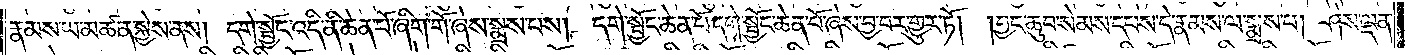རྣམས་ཡ་མཚན་སྐྱེས་ནས། དགེ་སྦྱོང་འདི་ནི་ཆེན་པོ་ཞིག་གོ་ཞེས་སྨྲས་པས། དགེ་སྦྱོང་ཆེན་པོ་དགེ་སྦྱོང་ཆེན་པོ་ཞེས་བྱ་བར་གྱུར་ཏོ། །བྱང་ཆུབ་སེམས་དཔས་དེ་རྣམས་ལ་སྨྲས་པ། ཤེས་ལྡན་
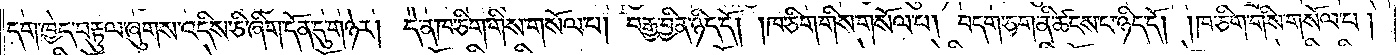དག་ཁྱེད་བརྟུལ་ཞུགས་འདིས་ཅི་ཞིག་དོན་དུ་གཉེར། དེ་ན་ཁ་ཅིག་གིས་གསོལ་པ། བརྒྱ་བྱིན་ཉིད་དོ། །ཁ་ཅིག་གིས་གསོལ་པ། བདག་ཅག་ནི་ཚངས་པ་ཉིད་དོ། །ཁ་ཅིག་གིས་གསོལ་པ།
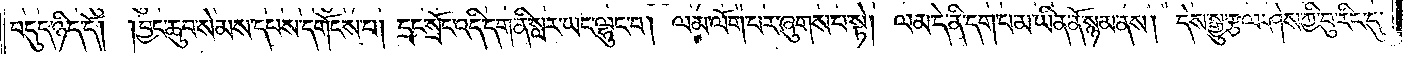བདུད་ཉིད་དོ། །བྱང་ཆུབ་སེམས་དཔས་དགོངས་པ། དྲང་སྲོང་འདི་དག་ནི་སླར་ཡང་ལྷུང་བ། ལམ་ལོག་པར་ཞུགས་པ་སྟེ། ལམ་དེ་ནི་དག་པ་མ་ཡིན་ནོ་སྙམ་ནས། དེས་སྒྱུ་རྩལ་ཤེས་ཀྱི་བུ་རིང་དུ་
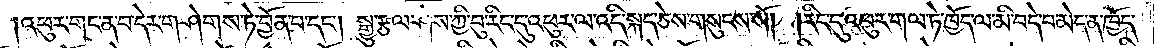།འཕུར་གང་ན་བ་དེར་གཤེགས་ཏེ་བྱོན་པ་དང༌། སྒྱུ་རྩལ་ཤེས་ཀྱི་བུ་རིང་དུ་འཕུར་ལ་འདི་སྐད་ཅེས་གསུངས་སོ། །རིང་དུ་འཕུར་གལ་ཏེ་ཁྱོད་ལ་མི་བདེ་བ་མེད་ན་ཁྱོད་
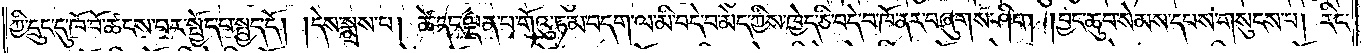ཀྱི་དྲུང་དུ་ཁོ་བོ་ཚངས་པར་སྤྱོད་པར་སྤྱད་དོ། །དེས་སྨྲས་པ། ཚེ་དང་ལྡན་པ་གོའུ་ཏ་མ་བདག་ལ་མི་བདེ་བ་མེད་ཀྱིས་ཁྱེད་ཅི་བདེ་བ་ཁོ་ནར་བཞུགས་ཤིག །བྱང་ཆུབ་སེམས་དཔས་གསུངས་པ། རིང་
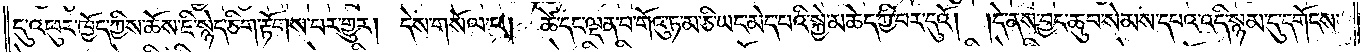དུ་འཕུར་ཁྱོད་ཀྱིས་ཆོས་ཇི་སྙེད་ཅིག་རྟོགས་པར་གྱུར། དེས་གསོལ་པ། ཚེ་དང་ལྡན་པ་གོའུ་ཏ་མ་ཅི་ཡང་མེད་པའི་སྐྱེ་མཆེད་ཀྱི་བར་དུའོ། །དེ་ནས་བྱང་ཆུབ་སེམས་དཔའ་འདི་སྙམ་དུ་དགོངས་
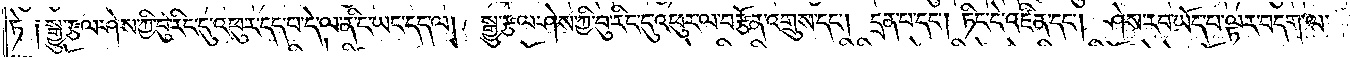ཏེ། སྒྱུ་རྩལ་ཤེས་ཀྱི་བུ་རིང་དུ་འཕུར་དད་པ་དེ་ལ་ནི་ང་ཡང་དད་ལ། སྒྱུ་རྩལ་ཤེས་ཀྱི་བུ་རིང་དུ་འཕུར་ལ་བརྩོན་འགྲུས་དང༌། དྲན་པ་དང༌། ཏིང་ངེ་འཛིན་དང༌། ཤེས་རབ་ཡོད་པ་ལྟར་བདག་ལ་
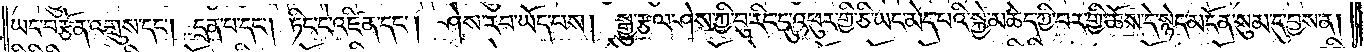ཡང་བརྩོན་འགྲུས་དང༌། དྲན་པ་དང༌། ཏིང་ངེ་འཛིན་དང༌། ཤེས་རབ་ཡོད་པས། སྒྱུ་རྩལ་ཤེས་ཀྱི་བུ་རིང་དུ་འཕུར་གྱི་ཅི་ཡང་མེད་པའི་སྐྱེ་མཆེད་ཀྱི་བར་གྱི་ཆོས་དེ་སྙེད་མངོན་སུམ་དུ་བྱས་ན།
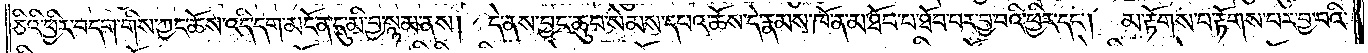ཅིའི་ཕྱིར་བདག་གིས་ཀྱང་ཆོས་འདི་དག་མངོན་དུ་མི་བྱ་སྙམ་ནས། དེ་ནས་བྱང་ཆུབ་སེམས་དཔའ་ཆོས་དེ་རྣམས་ཁོ་ན་མ་ཐོབ་པ་ཐོབ་པར་བྱ་བའི་ཕྱིར་དང༌། མ་རྟོགས་པ་རྟོགས་པར་བྱ་བའི་
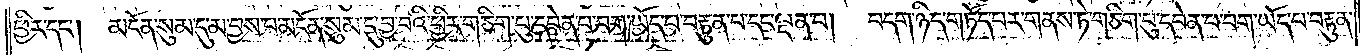ཕྱིར་དང༌། མངོན་སུམ་དུ་མ་བྱས་པ་མངོན་སུམ་དུ་བྱ་བའི་ཕྱིར་གཅིག་བུ་དབེན་པ་བག་ཡོད་པ་བརྟུན་པ་དང་ལྡན་པ།<gap>བདག་ཉིད་གཏོད་པར་གནས་ཏེ་གཅིག་བུ་དབེན་པ་བག་ཡོད་པ་བརྟུན་
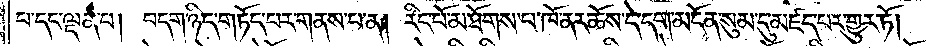པ་དང་ལྡན་པ། བདག་ཉིད་གཏོད་པར་གནས་པ་ན། རིང་པོ་མ་ཐོགས་པ་ཁོ་ནར་ཆོས་དེ་དག་མངོན་སུམ་དུ་མཛད་པར་གྱུར་ཏོ། །
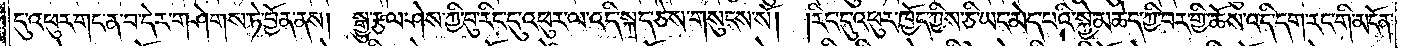དུ་འཕུར་གང་ན་བ་དེར་གཤེགས་ཏེ་བྱོན་ནས། སྒྱུ་རྩལ་ཤེས་ཀྱི་བུ་རིང་དུ་འཕུར་ལ་འདི་སྐད་ཅེས་གསུངས་སོ། །རིང་དུ་འཕུར་ཁྱོད་ཀྱིས་ཅི་ཡང་མེད་པའི་སྐྱེ་མཆེད་ཀྱི་བར་གྱི་ཆོས་འདི་དག་རང་གི་མངོན་
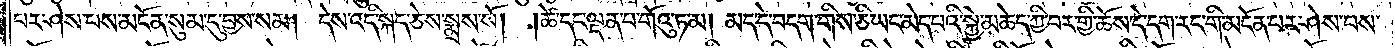པར་ཤེས་པས་མངོན་སུམ་དུ་བྱས་སམ། དེས་འདི་སྐད་ཅེས་སྨྲས་སོ། །ཚེ་དང་ལྡན་པ་གོའུ་ཏ་མ། མད་དེ་བདག་གིས་ཅི་ཡང་མེད་པའི་སྐྱེ་མཆེད་ཀྱི་བར་གྱི་ཆོས་དེ་དག་རང་གི་མངོན་པར་ཤེས་པས་
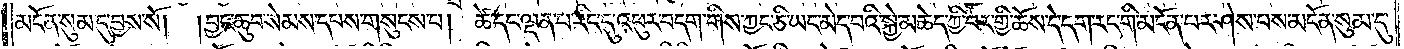མངོན་སུམ་དུ་བྱས་སོ། །བྱང་ཆུབ་སེམས་དཔས་གསུངས་པ། ཚེ་དང་ལྡན་པ་རིང་དུ་འཕུར་བདག་གིས་ཀྱང་ཅི་ཡང་མེད་པའི་སྐྱེ་མཆེད་ཀྱི་བར་གྱི་ཆོས་དེ་དག་རང་གི་མངོན་པར་ཤེས་པས་མངོན་སུམ་དུ་
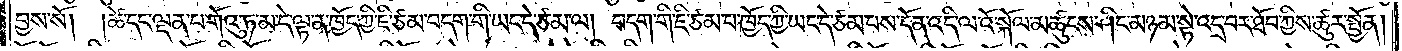བྱས་སོ། །ཚེ་དང་ལྡན་པ་གོའུ་ཏ་མ་དེ་ལྟ་ན་ཁྱོད་ཀྱི་ཇི་ཙམ་བདག་གི་ཡང་དེ་ཙམ་ལ། བདག་གི་ཇི་ཙམ་པ་ཁྱོད་ཀྱི་ཡང་དེ་ཙམ་པས་དོན་འདི་ལའོ་སྐོལ་མཚུངས་ཤིང་མཉམ་སྟེ་འདྲ་བར་ཐོབ་ཀྱིས་ཚུར་སྤྱོན།
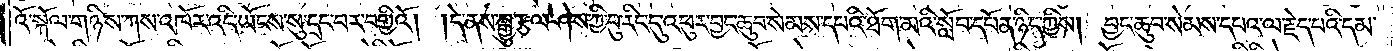འོ་སྐོལ་གཉིས་ཀས་འཁོར་འདི་ཡོངས་སུ་དྲང་བར་བགྱིའོ། །དེ་ནས་སྒྱུ་རྩལ་ཤེས་ཀྱི་བུ་རིང་དུ་འཕུར་བྱང་ཆུབ་སེམས་དཔའི་ཐོག་མའི་སློབ་དཔོན་ཉིད་ཀྱིས། བྱང་ཆུབ་སེམས་དཔའ་ལ་རྗེད་པའི་དམ་
